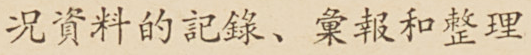况資料的紀錄、彙報和整理
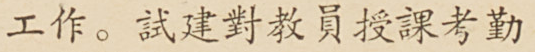工作。試建對教員授課考勤
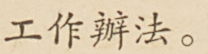工作辦法。
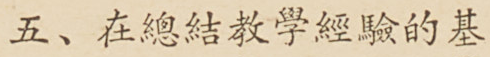五、在總結教學經驗的基
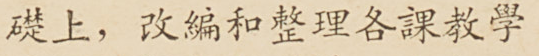礎上，改編和整理各課教學
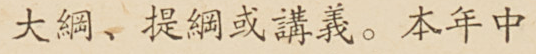大綱、提綱或講義。本年中
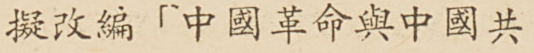擬改編「中國革命與中國共
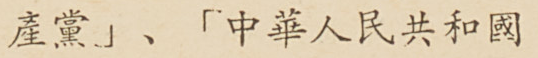產黨」、「中華人民共和國
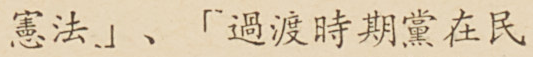憲法」、「過渡時期黨在民
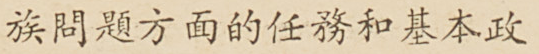族問題方面的任務和基本政
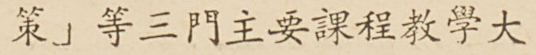策」等三門主要課程教學大
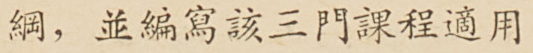綱，並編寫該三門課程適用
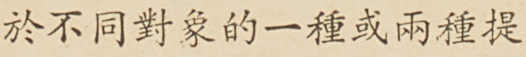於不同對象的一種或兩種提
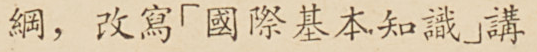綱，改寫「國際基本知識」講
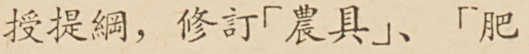授提綱，修訂「農具」、「肥
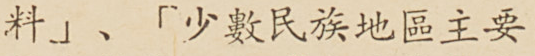料」、「少數民族地區主要
